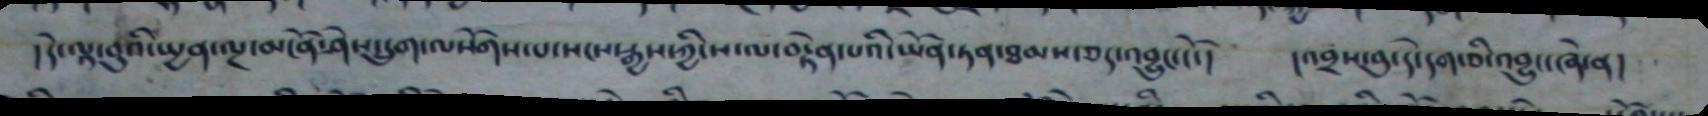།དེ་ལྟ་བུའི་སྤྱན་ལྔ་མངོན་ཤེས་དྲུག་ལསོགས་པ་སངས་རྒྱས་ཀྱི་ས་ལ་བརྟེན་པའི་ཡོན་ཏན་ཐམས་ཅད་འབྱུང་ངོ་། །འབྲས་བུ་དེ་དག་ཅི་འབྱུང་ཞེ་ན།
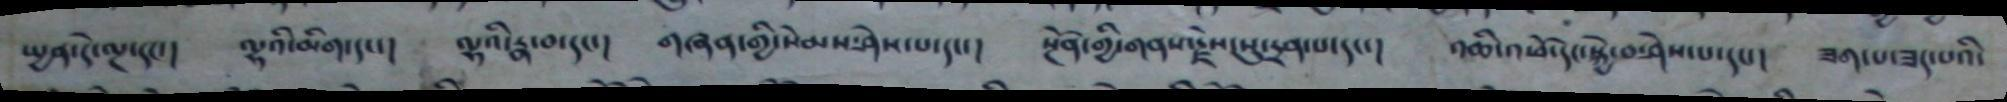སྤྱན་དེ་ལྔ་དང་། ལྷའི་མིག་དང་། ལྷའི་རྣ་བ་དང་། གཞན་གྱི་སེམས་ཤེས་པ་དང་། སྔོན་གྱི་གནས་རྗེས་སུ་དྲན་པ་དང་། འཆི་འཕ་ོདང་སྐྱེ་བ་ཤེས་པ་དང་། ཟག་པ་ཟད་པའི་
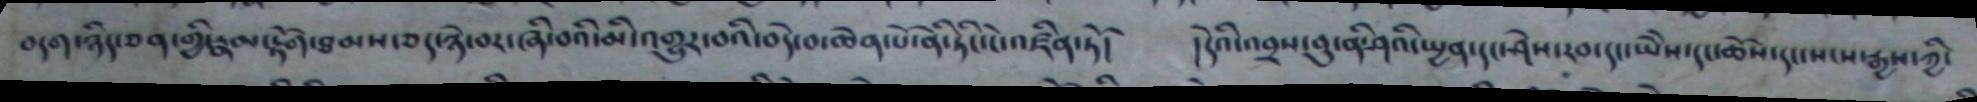བདག་ཉིད་ཅན་གྱི་རྣམ་རྟོག་ཐམས་ཅད་ཉེ་བར་ཞི་བའི་མི་འགྱུར་བའི་བདེ་བ་ཆེན་པོ་ནི་ཏིང་ངེ་འཛིན་ཏོ། །དེའི་འབྲས་བུ་ནི་ཤའི་སྤྱན་དང་ཤེས་རབ་དང་ཡཻས་དང་ཆོས་དང་སངས་རྒྱས་ཀྱི་
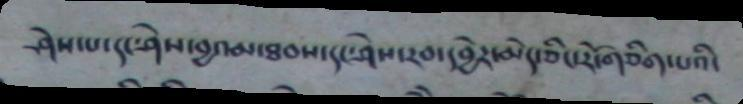ཤེས་པ་དང་ཤེས་བྱའམ་ཐབས་དང་ཤེས་རབ་དབྱེར་མེད་ཅིང་རོ་གཅིག་པའོ་
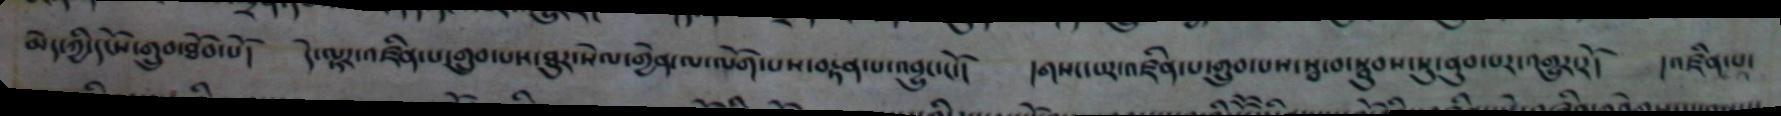མེད་ཀྱི་དངོས་གྲུབ་ཐོབ་པོ། དེ་ལྟར་འཛིན་པ་གྲུབ་པས་ཐུར་སེལ་གྱེན་ལ་ལོག་པས་བསྟན་པ་འབྱུང་ངོ་། །གསང་པར་འཛིན་པ་གྲུབ་པས་སྦ་བ་སྦུབས་སུ་ཉུབ་པར་འགྱུར་རོ། །འཛིན་པ་
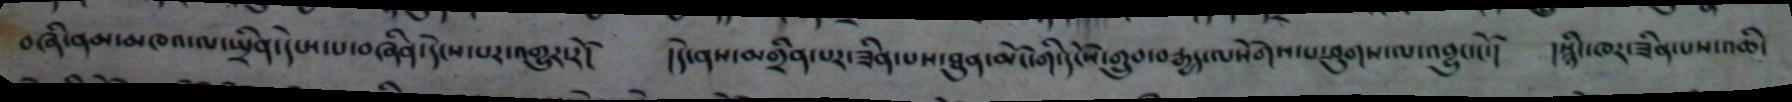བཞི་ནམ་མཁའ་ལ་སྤྲིན་དེངས་པ་བཞིན་དེངས་པར་འགྱུར་རོ། །དེ་ནས་མགྲིན་པར་ཟིན་པས་ཐུན་མོང་གི་དངོས་གྲུབ་བརྒྱད་ལསོགས་པ་ཤུགས་ལ་འབྱུང་ངོ་། །སྙིང་ཁར་ཟིན་པས་འཆི་
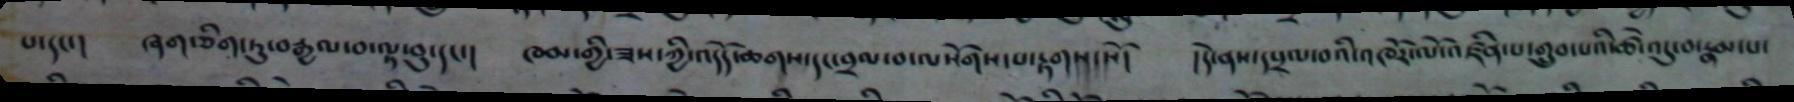པ་དང་། ཞག་ཅིག་ཏུ་བརྒྱལ་བ་ལྟ་བུ་དང་། ཁམ་གྱི་ཟས་ཀྱི་འདོད་ཆགས་དང་བྲལ་བ་ལསོགས་པ་རྟགས་སོ། །དེ་ནས་དཔྲལ་བའི་འཁོར་ལོ་འཛིན་པ་གྲུབ་པའི་ཚེ་འདུ་བ་རྣམ་པ་
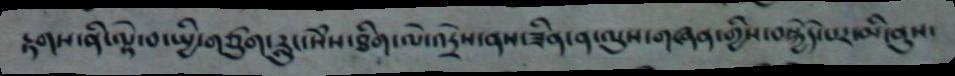རྟགས་ནི་ལྟེ་བ་སྤྱི་གཙུག་རླུང་སེཾས་ཐིག་ལེ་འདྲེས་ནས་ཟིན་ན་ལུས་གཞན་གྱིས་བསྐྱེད་པར་མི་ནུས་
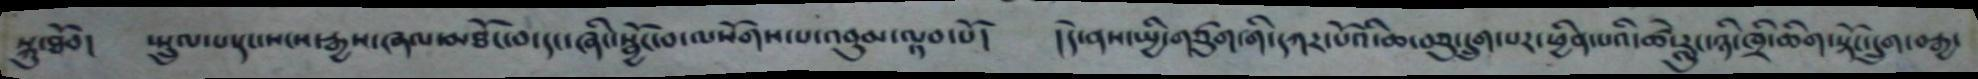སྐུ་ཐོབ། སྤྲུལ་པ་དང་སངས་རྒྱས་ཞལ་མཐོང་བ་དང་ཞིང་སྦྱོང་བ་ལསོགས་པ་འབུམ་ལྟབ་པོ། །དེ་ནས་སྤྱི་གཙུག་གི་དཀར་པོའི་ཆ་བཅུ་དྲུག་པར་ཕྱིན་པའི་ཚེ་རླུང་ཉི་ཁྲི་ཆིག་སྟོང་དྲུག་བརྒྱ་
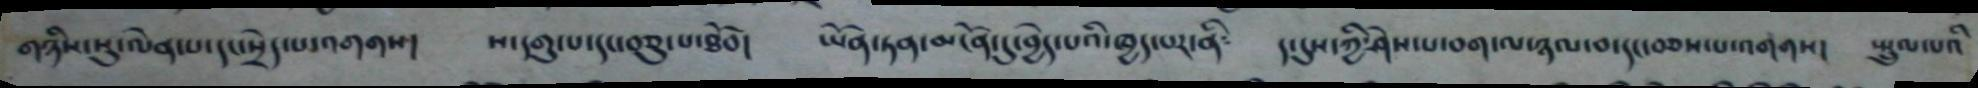གཉིས་སུ་ལེན་པ་དང་སྲེད་པ་འགགས། ས་དགུ་པ་དང་བཅུ་པ་ཐོབ། ཡོན་ཏན་མངོན་དུ་བྱེད་པའི་ཁྱད་པར་ནི༴ ད་དུས་ཀྱི་ཤེས་པ་བག་ལ་ཉལ་བ་དང་བཅས་པ་འགགས། སྤྲུལ་པའི
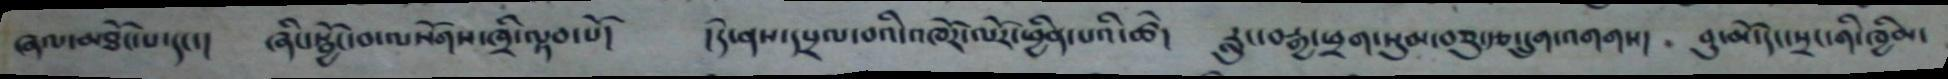ཞལ་མཐོང་པ་དང་། ཞིང་སྦྱོང་བ་ལསོགས་ཁྲི་ལྟབ་པོ། །དེ་ནས་དཔྲལ་བའི་འཁོར་ལོར་ཕྱིན་པའི་ཚེ། རླུང་བརྒྱ་ཕྲག་སུམ་བཅུ་རྩ་དྲུག་འགགས། བུ་མོ་དང་སྲང་གི་ཁྱིམ་
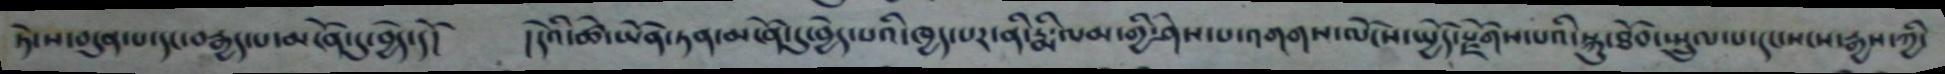ཏེ་ས་བདུན་པ་དང་བརྒྱད་པ་མངོན་དུ་བྱེད་དོ། །དེའི་ཚེ་ཡོན་ཏན་མངོན་དུ་བྱེད་པའི་ཁྱད་པར་ནི་རྨི་ལམ་གྱི་ཤེས་པ་འགགས་ལོངས་སྤྱོད་སྫོགས་པའི་སྐུ་ཐོབ་སྤྲུལ་པ་དང་སངས་རྒྱས་ཀྱི་
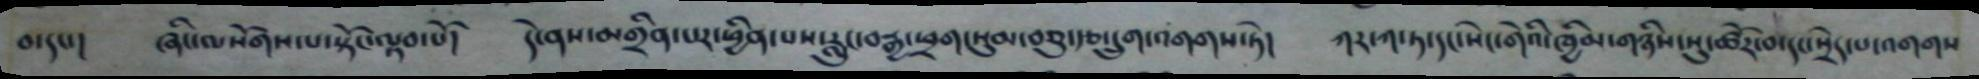བ་དང་། ཞིང་ལསོགས་པ་སྟོང་ལྟབ་པོ། དེ་ནས་མགྲིན་པར་ཕྱིན་པས་རླུང་བརྒྱ་ཕྲག་སུམ་བཅུ་རྩ་དྲུག་འགགས་ཏེ། ཀར་ཀ་ཏ་དང་སེང་གེའི་ཁྱིམ་གཉིས་སུ་ཚོར་བ་དང་སྲེད་པ་འགགས
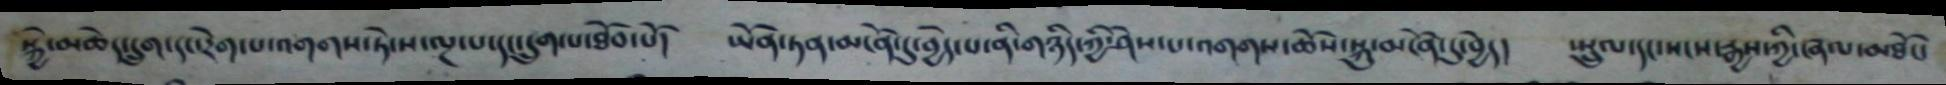སྐྱེ་མཆེད་དྲུག་དང་རེག་པ་འགགས་ཏེ་ས་ལྔ་པ་དང་དྲུག་པ་ཐོབ་པོ། ཡོན་ཏན་མངོན་དུ་བྱེད་པ་ནི་གཉིད་ཀྱི་ཤེས་པ་འགགས་ཆོས་སྐུ་མངོན་དུ་བྱེད། སྤྲུལ་དང་སངས་རྒྱས་ཀྱི་ཞལ་མཐོང་
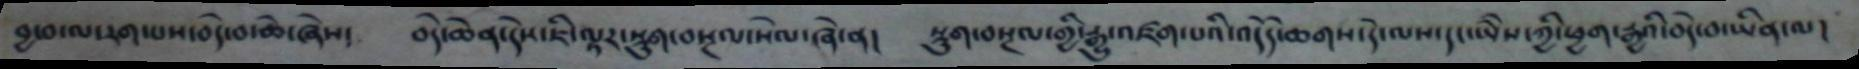བྱ་བ་ལ་རག་པས་བདེ་བ་ཆེ་ཞེས། བདེ་ཆེན་དེས་ཇི་ལྟར་སྡུག་བསྔལ་སེལ་ཞེ་ན། སྡུག་བསྔལ་གྱི་རྒྱུ་འཛག་པའི་འདོད་ཆགས་དེ་ལས་དང་ཡཻས་ཀྱི་ཕྱག་རྒྱའི་བདེ་བ་ཡིན་ལ།
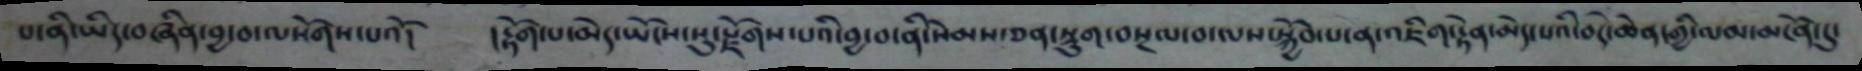པ་ནི་ཡིད་བཞིན་བྱ་བ་ལསོགས་པའོ། །རྟོག་པ་མེད་ཡོངས་སུ་སྫོགས་པའི་བྱ་བ་ནི་སེམས་ཅན་སྡུག་བསྔལ་བ་ལས་སྐྱོབ་པ་ན་འཇིག་རྟེན་མེད་པའི་བདེ་ཆེན་གྱི་ལམ་མངོན་དུ་
